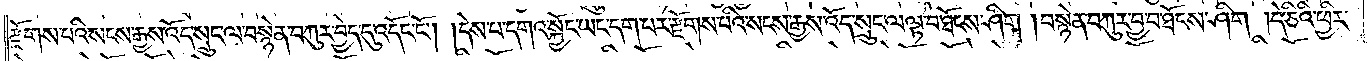རྫོགས་པའི་སངས་རྒྱས་འོད་སྲུང་ལ་བསྙེན་བཀུར་བྱེད་དུ་འདོང་ངོ༌། །དེས་པ་དགའ་སྐྱོང་ཡང་དག་པར་རྫོགས་པའི་སངས་རྒྱས་འོད་སྲུང་ལ་ལྟ་བ་ཐོངས་ཤིག །བསྙེན་བཀུར་བྱ་བ་ཐོངས་ཤིག །དེ་ཅིའི་ཕྱིར་
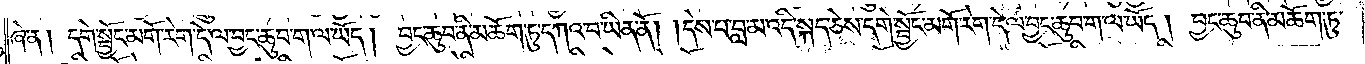ཞེ་ན། དགེ་སྦྱོང་མགོ་རེག་དེ་ལ་བྱང་ཆུབ་ག་ལ་ཡོད། བྱང་ཆུབ་ནི་མཆོག་ཏུ་དཀའ་བ་ཡིན་ནོ། །དེས་པ་བླ་མ་འདི་སྐད་ཅེས་དགེ་སྦྱོང་མགོ་རེག་དེ་ལ་བྱང་ཆུབ་ག་ལ་ཡོད། བྱང་ཆུབ་ནི་མཆོག་ཏུ་
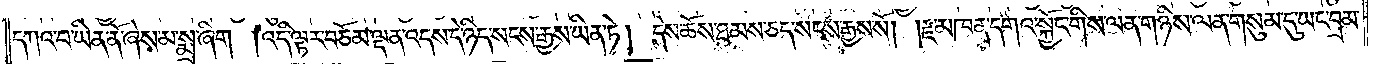དཀའ་བ་ཡིན་ནོ་ཞེས་མ་སྨྲ་ཞིག །འདི་ལྟར་བཅོམ་ལྡན་འདས་དེ་ཉིད་སངས་རྒྱས་ཡིན་ཏེ། དེས་ཆོས་ཐམས་ཅད་སངས་རྒྱས་སོ། །རྫ་མཁན་དགའ་སྐྱོང་གིས་ལན་གཉིས་ལན་གསུམ་དུ་ཡང་བྲམ་
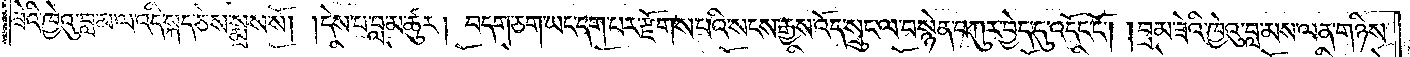ཟེའི་ཁྱེའུ་བླ་མ་ལ་འདི་སྐད་ཅེས་སྨྲས་སོ། །དེས་པ་བླ་མ་ཚུར། བདག་ཅག་ཡང་དག་པར་རྫོགས་པའི་སངས་རྒྱས་འོད་སྲུང་ལ་བསྙེན་བཀུར་བྱེད་དུ་འདོང་ངོ༌། །བྲམ་ཟེའི་ཁྱེའུ་བླ་མས་ལན་གཉིས་
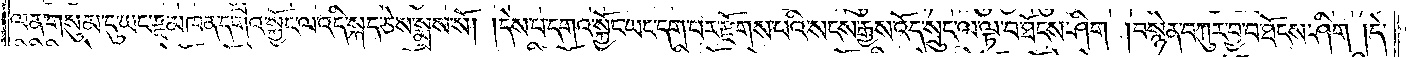ལན་གསུམ་དུ་ཡང་རྫ་མཁན་དགའ་སྐྱོང་ལ་འདི་སྐད་ཅེས་སྨྲས་སོ། །དེས་པ་དགའ་སྐྱོང་ཡང་དག་པར་རྫོགས་པའི་སངས་རྒྱས་འོད་སྲུང་ལ་ལྟ་བ་ཐོངས་ཤིག །བསྙེན་བཀུར་བྱ་བ་ཐོངས་ཤིག །དེ་
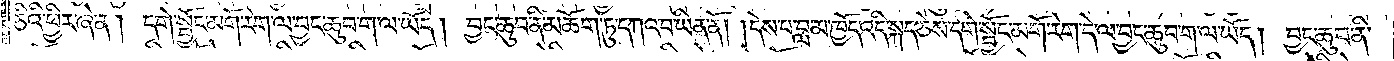ཅིའི་ཕྱིར་ཞེ་ན། དགེ་སྦྱོང་མགོ་རེག་ལ་བྱང་ཆུབ་ག་ལ་ཡོད། བྱང་ཆུབ་ནི་མཆོག་ཏུ་དཀའ་བ་ཡིན་ནོ། །དེས་པ་བླ་མ་ཁྱོད་འདི་སྐད་ཅེས་དགེ་སྦྱོང་མགོ་རེག་དེ་ལ་བྱང་ཆུབ་ག་ལ་ཡོད། བྱང་ཆུབ་ནི་
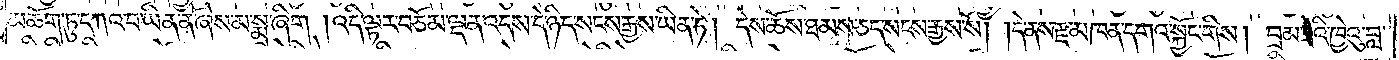མཆོག་ཏུ་དཀའ་བ་ཡིན་ནོ་ཞེས་མ་སྨྲ་ཞིག །འདི་ལྟར་བཅོམ་ལྡན་འདས་དེ་ཉིད་སངས་རྒྱས་ཡིན་ཏེ། དེས་ཆོས་ཐམས་ཅད་སངས་རྒྱས་སོ། །དེ་ནས་རྫ་མཁན་དགའ་སྐྱོང་གིས། བྲམ་ཟེའི་ཁྱེའུ་བླ་
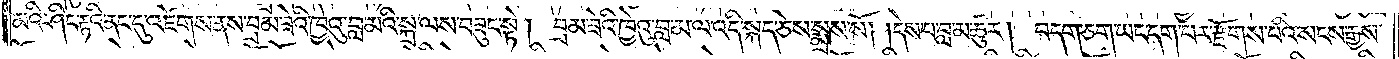མའི་ཤིང་རྟའི་ནང་དུ་འཛེགས་ནས་བྲམ་ཟེའི་ཁྱེའུ་བླ་མའི་སྐྲ་ལས་བཟུང་སྟེ། བྲམ་ཟེའི་ཁྱེའུ་བླ་མ་ལ་འདི་སྐད་ཅེས་སྨྲས་སོ། །དེས་པ་བླ་མ་ཚུར། བདག་ཅག་ཡང་དག་པར་རྫོགས་པའི་སངས་རྒྱས་
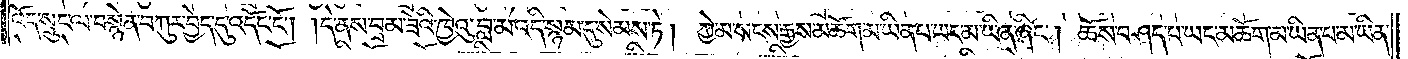འོད་སྲུང་ལ་བསྙེན་བཀུར་བྱེད་དུ་འདོང་ངོ༌། །དེ་ནས་བྲམ་ཟེའི་ཁྱེའུ་བླ་མ་འདི་སྙམ་དུ་སེམས་ཏེ། ཀྱེ་མ་སངས་རྒྱས་མཆོག་མ་ཡིན་པ་ཡང་མ་ཡིན་ཞིང༌། ཆོས་བཤད་པ་ཡང་མཆོག་མ་ཡིན་པ་མ་ཡིན་
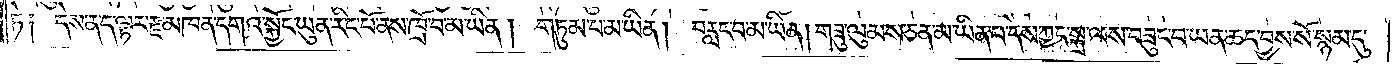ཏེ༑  དེས་ན་ད་ལྟར་རྫ་མཁན་དགའ་སྐྱོང་ཡུན་རིང་པོ་ནས་ཁྲོ་བ་མ་ཡིན། གཏུམ་པ་མ་ཡིན། བརླང་བ་མ་ཡིན། གཟུ་ལུམས་ཅན་མ་ཡིན་པ་དེས་ཀྱང་སྐྲ་ལས་བཟུང་བ་ཡན་ཆད་བྱས་སོ་སྙམ་དུ་
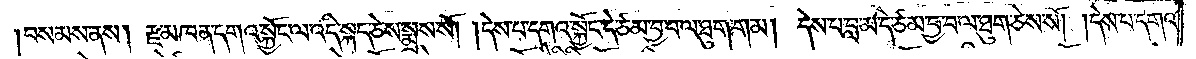བསམས་ནས། རྫ་མཁན་དགའ་སྐྱོང་ལ་འདི་སྐད་ཅེས་སྨྲས་སོ། །དེས་པ་དགའ་སྐྱོང་དེ་ཙམ་བྱ་བ་ལ་ཐུག་གམ། དེས་པ་བླ་མ་དེ་ཙམ་བྱ་བ་ལ་ཐུག་ཅེས་སོ། །དེས་པ་དགའ་
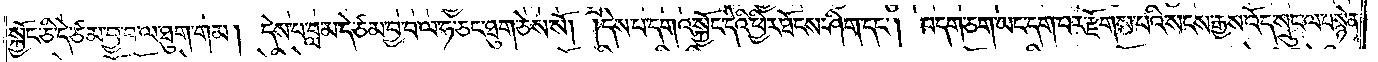སྐྱོང་ཅི་དེ་ཙམ་བྱ་བ་ལ་ཐུག་གམ། དེས་པ་བླ་མ་དེ་ཙམ་བྱ་བ་ལ་ཧ་ཅང་ཐུག་ཅེས་སོ། །དེས་པ་དགའ་སྐྱོང་དེའི་ཕྱིར་ཐོངས་ཤིག་དང༌། བདག་ཅག་ཡང་དག་པར་རྫོགས་པའི་སངས་རྒྱས་འོད་སྲུང་ལ་བསྙེན་
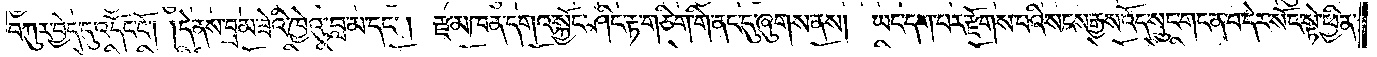བཀུར་བྱེད་དུ་འདོང་ངོ༌། །དེ་ནས་བྲམ་ཟེའི་ཁྱེའུ་བླ་མ་དང༌། རྫ་མཁན་དགའ་སྐྱོང་ཤིང་རྟ་གཅིག་གི་ནང་དུ་ཞུགས་ནས། ཡང་དག་པར་རྫོགས་པའི་སངས་རྒྱས་འོད་སྲུང་གང་ན་བ་དེར་སོང་སྟེ་ཕྱིན་
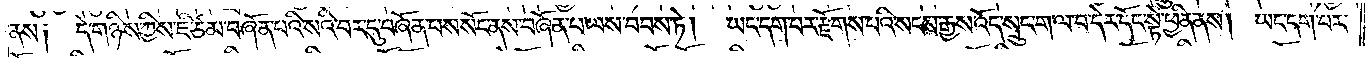ནས༑ དེ་གཉིས་ཀྱིས་ཇི་ཙམ་བཞོན་པའི་སའི་བར་དུ་བཞོན་པས་སོང་ནས་བཞོན་པ་ལས་བབས་ཏེ། ཡང་དག་པར་རྫོགས་པའི་སངས་རྒྱས་འོད་སྲུང་ག་ལ་བ་དེར་དོང་སྟེ་ཕྱིན་ནས། ཡང་དག་པར་
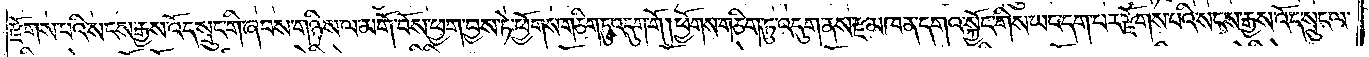རྫོགས་པའི་སངས་རྒྱས་འོད་སྲུང་གི་ཞབས་གཉིས་ལ་མགོ་བོས་ཕྱག་བྱས་ཏེ་ཕྱོགས་གཅིག་ཏུ་འདུག་གོ།ཕྱོགས་གཅིག་ཏུ་འདུག་ནས་རྫ་མཁན་དགའ་སྐྱོང་གིས་ཡང་དག་པར་རྫོགས་པའི་སངས་རྒྱས་འོད་སྲུང་ལ་
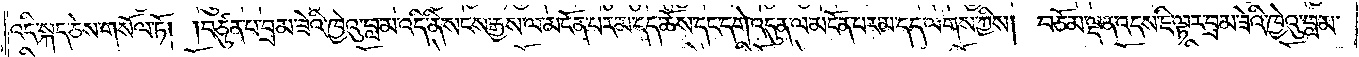འདི་སྐད་ཅེས་གསོལ་ཏོ། །བཙུན་པ་བྲམ་ཟེའི་ཁྱེའུ་བླ་མ་འདི་ནི་སངས་རྒྱས་ལ་མངོན་པར་མ་དད་ཆོས་དང་དགེ་འདུན་ལ་མངོན་པར་མ་དད་ལགས་ཀྱིས། བཅོམ་ལྡན་འདས་ཇི་ལྟར་བྲམ་ཟེའི་ཁྱེའུ་བླ་མ་
